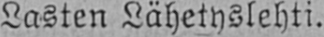Lasten Lähetyslehti.
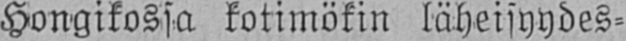Hongikossa kotimökin läheisyydes-
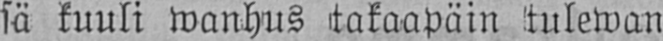sä kuuli wanhus takaapäin tulewan
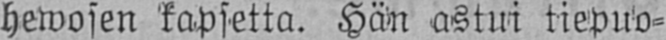hewosen kapsetta. Hän astui tiepuo-
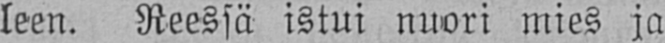leen. Reessä istui nuori mies ja
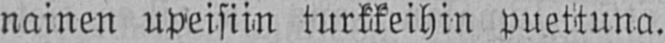nainen upeisiin turkkeihin puettuna.
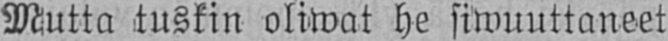Mutta tuskin oliwat he siwuuttaneet
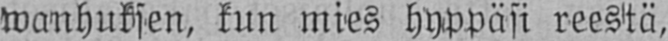wanhuksen, kun mies hyppäsi reestä,
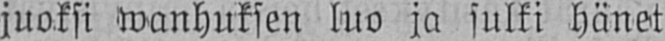juoksi wanhuksen luo ja sulki hänet
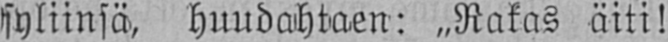syliinsä, huudahtaen: „Rakas äiti!
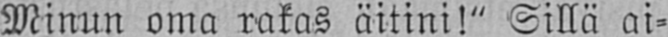Minun oma rakas äitini!" Sillä ai-
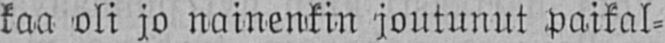kaa oli jo nainenkin joutunut paikal-
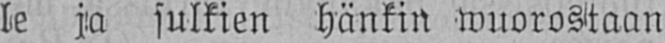le ja sulkien hänkin wuorostaan
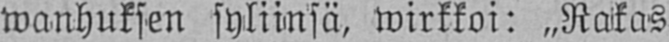wanhuksen syliinsä, wirkkoi: „Rakas
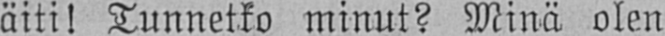äiti! Tunnetko minut? Minä olen
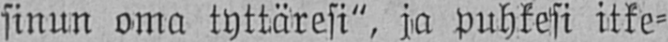sinun oma tyttäresi", ja puhkesi itke-
